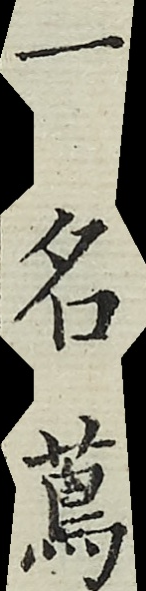一名蔦
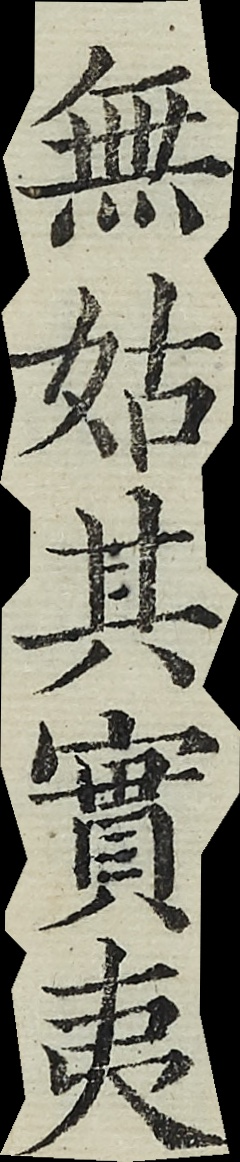無姑其實夷
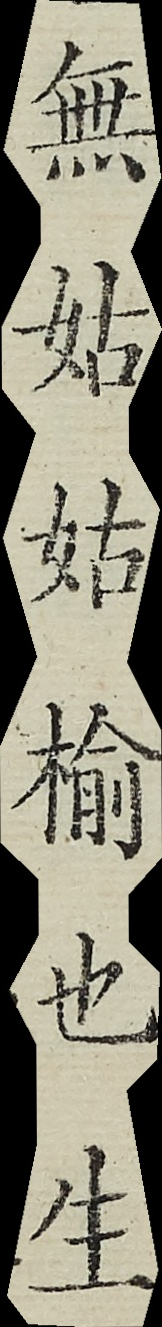無姑姑榆也生
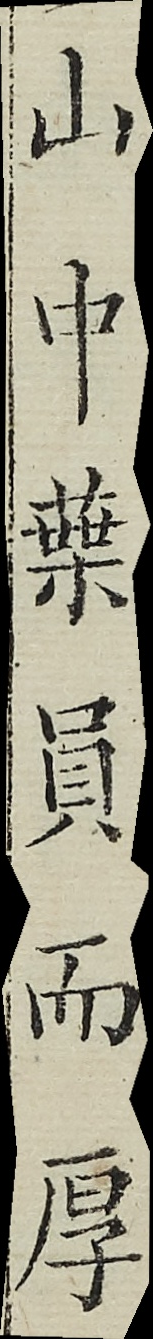山中葉員而厚
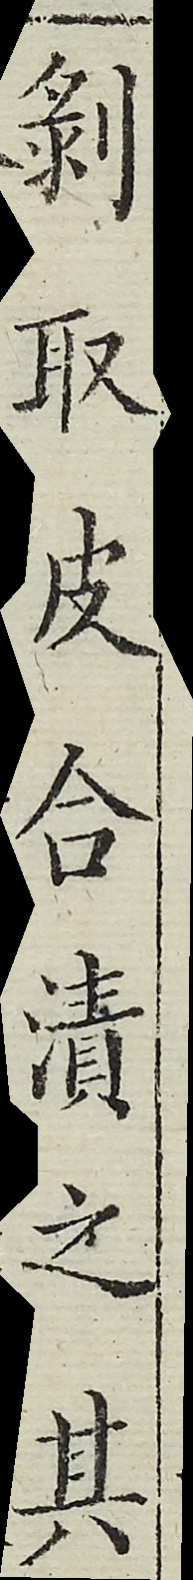剝取皮合漬之其
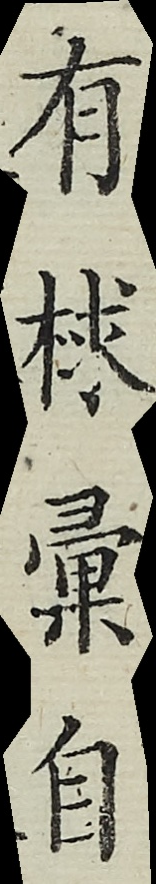有梂彙自
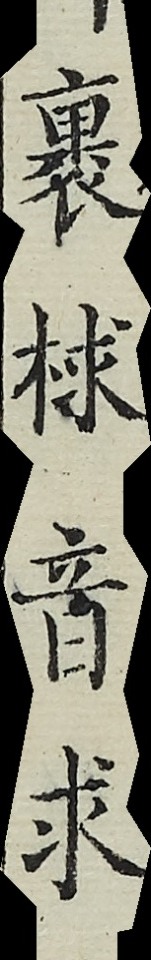裏梂音求
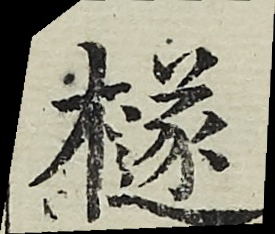檖
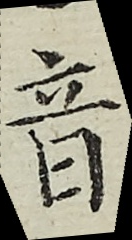音
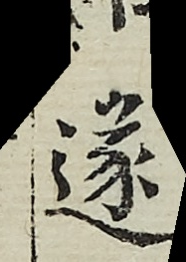遂
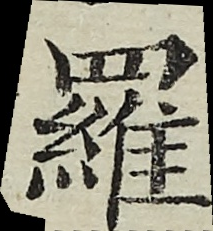羅
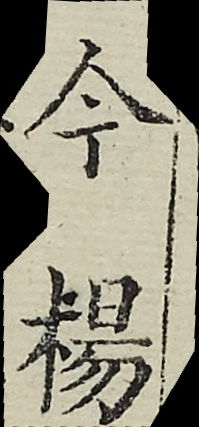今楊
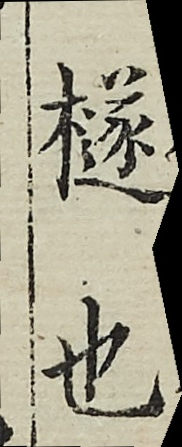檖也
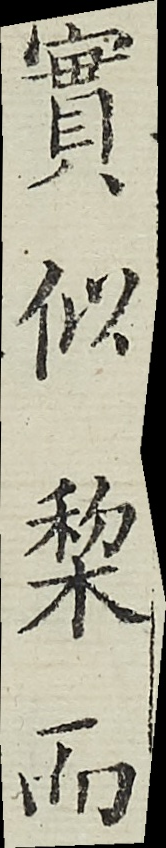實似棃而
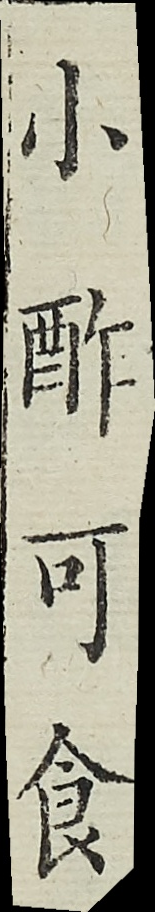小酢可食
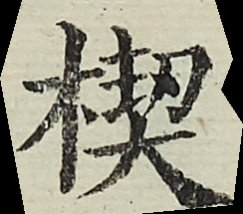楔
